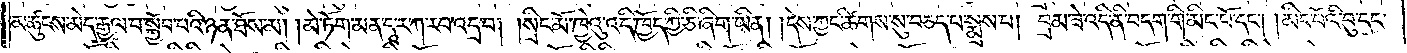མཚུངས་མེད་རྒྱལ་བ་སྐྱོབ་པའི་ཉན་ཐོས་མ། །མེ་ཏོག་མན་དཱ་ར་ཀ་རབ་འདྲ་བ། །སྲིང་མོ་ཁྱེའུ་འདི་ཁྱོད་ཀྱི་ཅི་ཞིག་ཡིན། །དེས་ཀྱང་ཚིགས་སུ་བཅད་པ་སྨྲས་པ། བྲམ་ཟེ་འདི་ནི་བདག་གི་མིང་པོ་དང༌། །མིང་པོའི་བུ་དང་
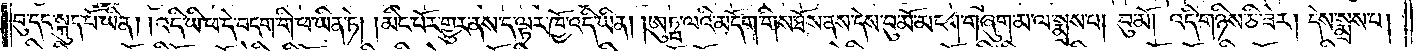བུ་དང་སྐུད་པོ་ཡིན། །འདི་ཡི་ཕ་དེ་བདག་གི་ཕ་ཡིན་ཏེ། །མིང་པོར་གྱུར་ནས་ད་ལྟར་ཁྱོ་འདི་ཡིན། ཨུཏྤ་ལའི་མདོག་གིས་ཐོས་ནས་དེས་བུ་མོ་མངག་གཞུག་མ་ལ་སྨྲས་པ། བུ་མོ། འདི་གཉིས་ཅི་ཟེར། དེས་སྨྲས་པ།
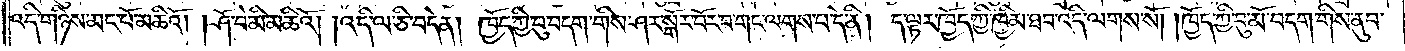འདི་གཉིས་མང་པོ་མཆིའོ། །ཤོ་བེ་མི་མཆིའོ། །འདི་ལ་ཅི་བདེན། ཁྱོད་ཀྱི་བུ་བདག་གིས་ཤར་སྒོར་བོར་བ་གང་ལགས་པ་དེ་ནི། ད་ལྟར་ཁྱོད་ཀྱི་ཁྱིམ་ཐབ་འདི་ལགས་སོ། །ཁྱོད་ཀྱི་བུ་མོ་བདག་གིས་ནུབ་
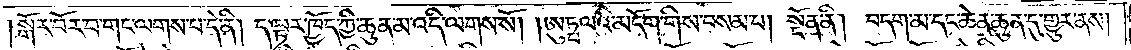།སྒོར་བོར་བ་གང་ལགས་པ་དེ་ནི། ད་ལྟར་ཁྱོད་ཀྱི་ཆུན་མ་འདི་ལགས་སོ། །ཨུཏྤ་ལའི་མདོག་གིས་བསམ་པ། སྔོན་ནི། བདག་མ་དང་ཆེན་ཆུན་དུ་གྱུར་ནས།
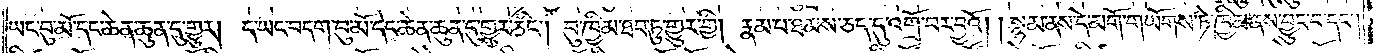ཡང་བུ་མོ་དང་ཆེན་ཆུན་དུ་གྱུར། ད་ཡང་བདག་བུ་མོ་དེང་ཆེན་ཆུན་དུ་གྱུར་ཅིང༌། བུ་ཁྱིམ་ཐབ་ཏུ་གྱུར་གྱི། རྣམ་པ་ཐམས་ཅད་དུ་འགྲོ་བར་བྱའོ། །སྙམ་ནས་དེ་མགོ་གཡོགས་ཏེ་ཁྱིམ་ནས་བྱུང་བ་དང༌།
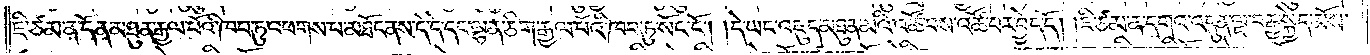ཇི་ཙམ་ན་དོན་མཐུན་རྒྱལ་པོའི་ཁབ་ཏུ་འཕགས་པ་མཐོང་ནས་དེ་དེ་དང་ལྷན་ཅིག་རྒྱལ་པོའི་ཁབ་ཏུ་སོང་ངོ༌། །དེ་ཡང་འཇུད་མཐུན་མའི་འཚོ་བས་འཚོ་བར་བྱེད་དོ། །ཇི་ཙམ་ན་དགའ་འདུན་ལྔ་བརྒྱ་སྐྱེད་མོས་
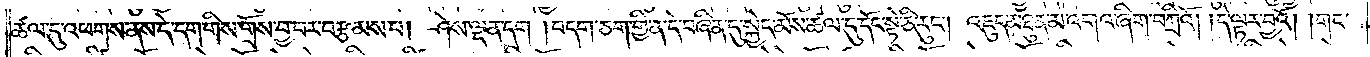ཚལ་དུ་འཕགས་ནས་དེ་དག་གིས་གྲོས་བྱ་བར་བརྩམས་པ། ཤེས་ལྡན་དག །བདག་ཅག་གྱི་ན་དེ་བཞིན་དུ་སྐྱེད་མོས་ཚལ་དུ་དོང་སྟེ་ཅི་རུང༌། འཇུད་མཐུན་མ་འགའ་ཞིག་བཀྲིའོ། །དེ་ལྟར་བྱའོ། །གང་
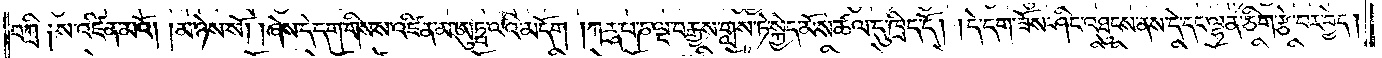བཀྲི། ས་འཛིན་མའོ། །མ་ཉེས་སོ། །ཞེས་དེ་དག་གིས་ས་འཛིན་མ་ཨུཏྤ་ལའི་མདོག །ཀཪྴ་པ་ཎ་ལྔ་བརྒྱས་གླས་ཏེ་སྐྱེད་མོས་ཚལ་དུ་ཁྲིད་དོ། །དེ་དག་ཟོས་ཤིང་འཐུངས་ནས་དེ་དང་ལྷན་ཅིག་རྩེ་བར་བྱེད།
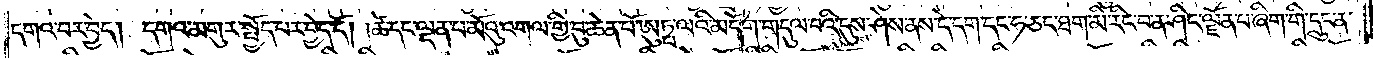དགའ་བར་བྱེད། དགའ་མགུར་སྤྱོད་པར་བྱེད་དོ། །ཚེ་དང་ལྡན་པ་མོའུ་འགལ་གྱི་བུ་ཆེན་པོ་ཨུཏྤ་ལའི་མདོག་གདུལ་བའི་དུས་ཤེས་ནས་དེ་དག་དང་ཧ་ཅང་ཐག་མི་རིང་བ་ན་ཤིང་ལྗོན་པ་ཞིག་གི་དྲུང་ན་
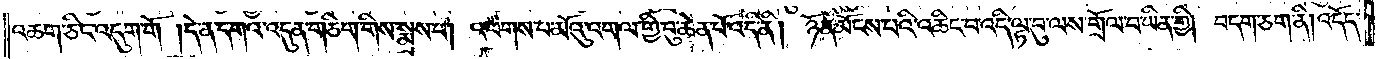འཆག་ཅིང་འདུག་གོ །དེ་ན་དགའ་འདུན་གཅིག་གིས་སྨྲས་པ། འཕགས་པ་མོའུ་འགལ་གྱི་བུ་ཆེན་པོ་འདི་ནི། ཉོན་མོངས་པའི་འཆིང་བ་འདི་ལྟ་བུ་ལས་གྲོལ་བ་ཡིན་གྱི། བདག་ཅག་ནི། འདོད་
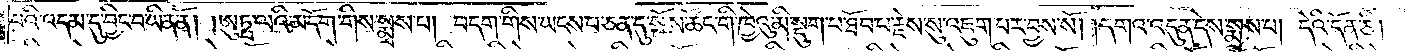པའི་དམ་དུ་བྱིང་བ་ཡིན་ནོ། །ཨུཏྤ་ལའི་མདོག་གིས་སྨྲས་པ། བདག་གིས་ཡངས་པ་ཅན་དུ་སྤོས་ཚོང་གི་ཁྱེའུ་མི་སྡུག་པ་ཐོབ་པ་རྗེས་སུ་འཇུག་པར་བྱས་སོ། །དགའ་འདུན་དེས་སྨྲས་པ། དེའི་དོན་ཅི།
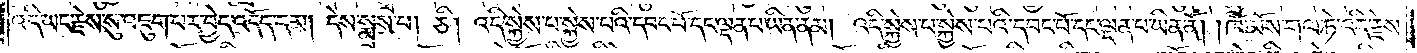འདི་ཡང་རྗེས་སུ་འཇུག་པར་བྱེད་འདོད་དམ། དེས་སྨྲས་པ། ཅི། འདི་སྐྱེས་པ་སྐྱེས་པའི་དབང་པོ་དང་སྟན་པ་ཡིན་ནམ། འདི་སྐྱེས་པ་སྐྱེས་པའི་དབང་པོ་དང་ལྡན་པ་ཡིན་ནོ། །ཁོ་མོས་གལ་ཏེ་འདི་རྗེས་
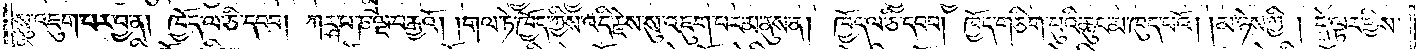སུ་འཇུག་པར་བྱ་ན། ཁྱོད་ལ་ཅི་དབབ། ཀཪྴ་པ་ཎ་ལྔ་བརྒྱའོ། །གལ་ཏེ་ཁྱོད་ཀྱིས་འདི་རྗེས་སུ་འཇུག་པར་མ་ནུས་ན། ཁྱོད་ལ་ཅི་དབབ། ཁྱོད་གཅིག་པུའི་ཆུང་མ་ཁུད་པའོ། །མ་ཉེས་ཀྱི། དེ་ལྟར་གྱིས་
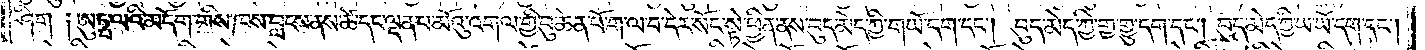ཤིག ༑ཨུཏྤ་ལའི་མདོག་གིས་ཁས་བླངས་ནས་ཚེ་དང་ལྡན་པ་མོའུ་འགལ་གྱི་བུ་ཆེན་པོ་ག་ལ་བ་དེར་སོང་སྟེ་ཕྱིན་ནས་བུད་མེད་ཀྱི་གཡོ་དག་དང༌། བུད་མེད་ཀྱི་གྱ་གྱུ་དག་དང༌། བུད་མེད་ཀྱི་ཡ་ཡོ་དག་དང༌།
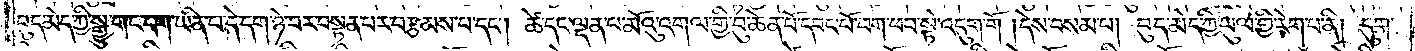བུད་མེད་ཀྱི་སྒྱུ་གང་དག་ཡིན་པ་དེ་དག་ཉེ་བར་བསྟན་པར་བརྩམས་པ་དང༌། ཚེ་དང་ལྡན་པ་མོའུ་འགལ་གྱི་བུ་ཆེན་པོ་དབང་པོ་བག་ཕབ་སྟེ་འདུག་གོ །དེས་བསམ་པ། བུད་མེད་ཀྱི་ཡུལ་གྱི་རེག་པ་ནི། དུག་
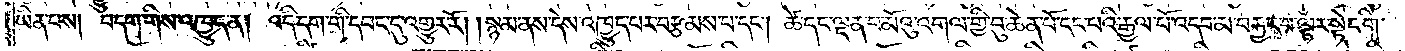ཡིན་པས། བདག་གིས་འཁྱུད་ན། འདི་དག་གི་དབང་དུ་འགྱུར་རོ། །སྙམ་ནས་དེས་འཁྱུད་པར་བརྩམས་པ་དང༌། ཚེ་དང་ལྡན་པ་མོའུ་འགལ་གྱི་བུ་ཆེན་པོ་ངང་པའི་རྒྱལ་པོ་འདབ་མ་བརྐྱང་བ་ལྟར་སྟེང་གི་
